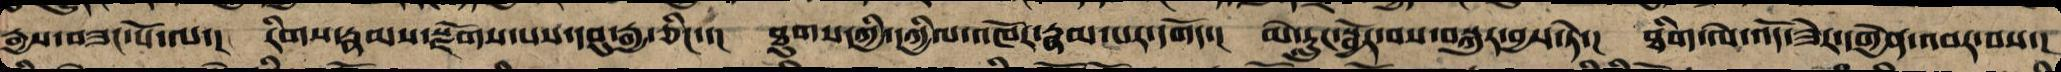རྒྱས་བཟང་པོ་ལ་།  རིགས་རྣམས་སྫོགས་པས་དབུ་བརྒྱན་ཅིང་་།  ཐུགས་ཀྱི་དཀྱིལ་འཁོར་རྣམ་པར་དགོད་།  མེ་རླུང་སྦྱོར་བས་བསྐུལ་བྱས་ཏེ་།  ཐིག་ལེ་འོད་ཟེར་གྱེན་འབར་བས་།
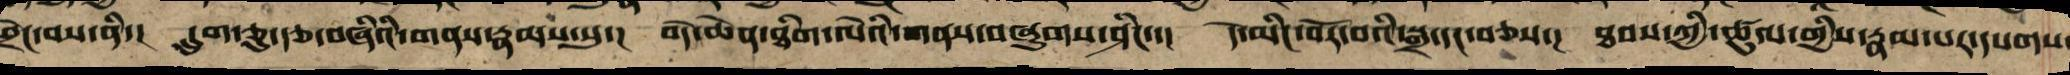ཕྲེང་བས་ནི་། དྲུག་ཅུ་རྩ་བཞིའི་གནས་རྣམས་སུ་། བདེ་ཆེན་ཐིག་ལེའི་ཚུལ་བཞུགས་ཤིང་་། དེ་མིང་བོར་བའི་སྒྲ་དང་བཅས་། ཐབས་ཀྱི་ཚུལ་གྱིས་རྣམ་པར་དཔགས
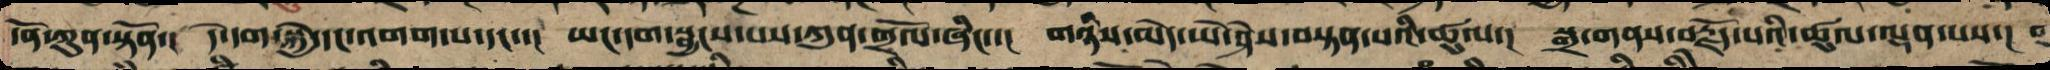དོན་ཀུན་སྟོན། དེ་དག་སྐྱེ་དང་འགག་པ་དང་། ཡང་དག་སྦྱངས་པས་ཀུན་གྲོལ་ཞིང་། གཉིས་མེད་ཡེ་ཤེས་བརྟན་པའི་ཚུལ། སྒྲ་གནས་བརྗོད་པའི་ཚུལ་ལྡན་པས།
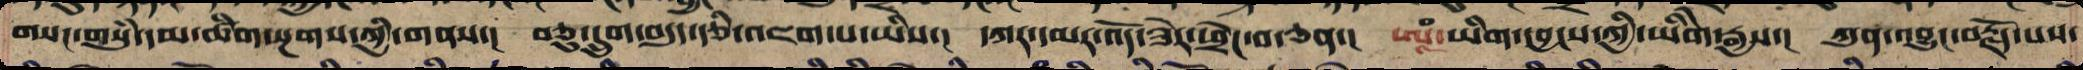གསང་གསུཾ་དམ་ཚིག་སྔགས་ཀྱི་གནས་། བཅུ་དྲུག་བདུད་རྩི་འཛག་པ་ཡིས་། དཀར་དམར་འོད་ཟེར་ཕྲེང་བ་ཅན་། ཨཱཾ་ཡིག་དབྱངས་ཀྱི་ཡིགེ་རྒྱས་། ཀུན་འབྱུང་བརྗོད་པས་
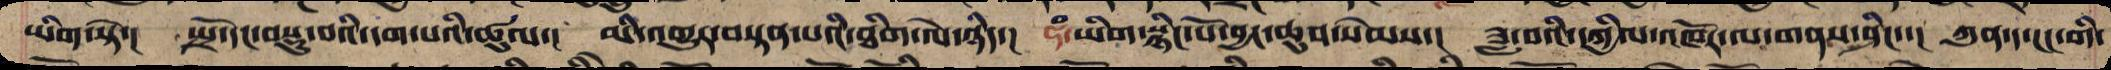ཡིགེསྟེ་། སྤྲོ་དང་བསྡུ་བས་དག་པའི་ཚུལ་། མི་འགྱུར་བསྟན་པའི་ཐིག་ལེ་ཉིད་། ཧཾ་ཡིག་སྙིང་པོ་བྱང་ཆུབ་སེམས་། ཟླ་བའི་དཀྱིལ་འཁོར་ལ་གནས་ཤིང་་། ཀུན་ད་ངང་གི་
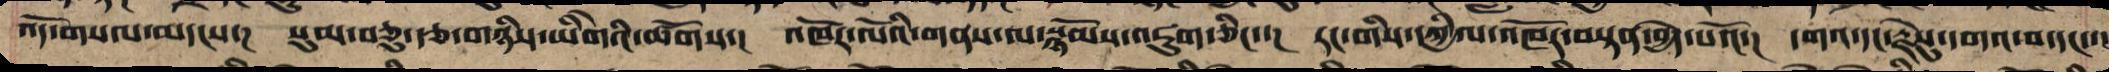འོད་གསལ་མདངས་། སུམ་ཅུ་རྩ་གཉིས་ཡིགེའི་ཚོགས་། འཁོར་ལོའི་གནས་ལ་སྙོམས་འཇུག་ཅིང་་། རང་གི་དཀྱིལ་འཁོར་བསྟན་བྱེད་པའོ་། དགའ་དང་རྗེསུ་དགའ་བ་དང་་།
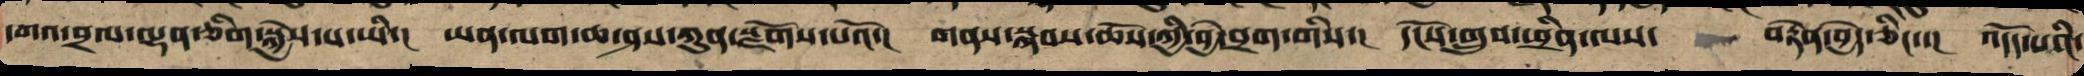དགའ་བྲལ་ལྷན་ཅིག་སྐྱེས་པ་ཡི་། ཡན་ལག་ཆ་ཤས་ཀུན་སྫོགས་པའོ་། གནས་སྐབས་ཆོས་ཀྱི་བྱེ་བྲག་གིས་། དངོས་གྲུབ་ཕྲིན་ལས་བརྟེན་བྱེད་ཅིང་་། འདོད་པའི་
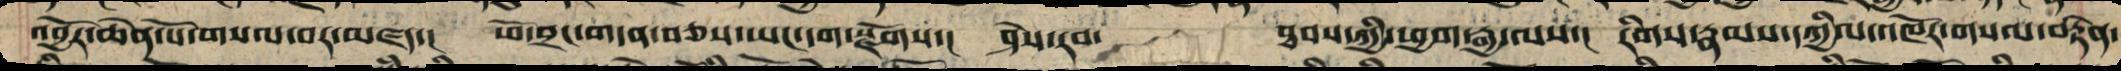འབྱོར་ཆེན་པོ་གསལ་བར་མཛད་། ཕོ་བྲང་གདན་བཅས་ཡང་དག་སྫོགས་། ཤེས་རབ་    ཐབས་ཀྱི་ཕྱག་རྒྱ་ལས་། རིགས་རྣམས་དཀྱིལ་འཁོར་གསལ་བརྟེན་
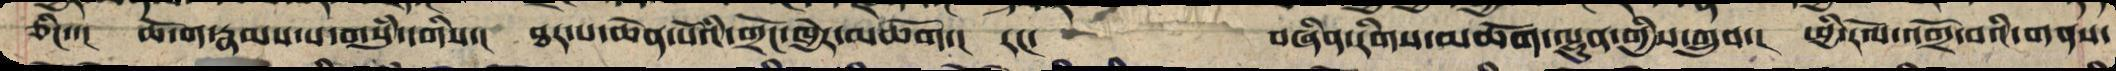ཅིང་་། ཆོ་ག་རྣམ་པ་གསུཾ་དག་གིས་། ཐར་པ་ཆེན་པོའི་གྲོང་ཁྱེར་མཆོག། རང་    བཞིན་རིགས་མཆོག་ལྷུན་གྱིས་གྲུབ་། ཕྱི་རོལ་འགྲོ་བའི་གནས་
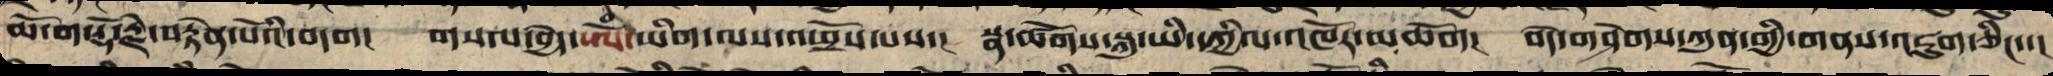ཆོ་ག་རྡོ་རྗེ་བརྟན་པོའི་བདག། གསལ་བྱེད་ཨོཾ་ཡིག་ལས་འཕྲོས་པས་། སྣ་ཚོགས་སྐུ་ཡི་དཀྱིལ་འཁོར་མཆོག། བདེ་གཤེགས་ཀུན་གྱི་གནས་འཇུག་ཅིང་་།
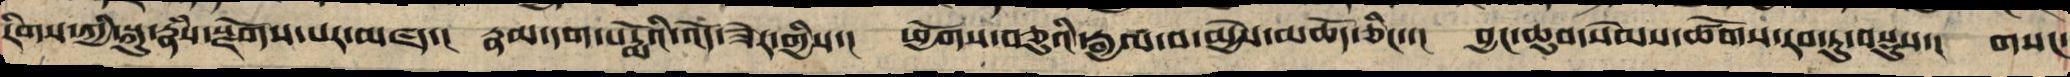རིགས་ཀྱི་སྐུ་རྣཾས་སྫོགས་པར་མཛད་། རྣམ་དག་པདྨོའི་འོད་ཟེར་གྱིས་། ཕྱོགས་བཅུའི་རྒྱལ་བ་མྱེས་མཆོད་ཅིང་་། བྱང་ཆུབ་སེམས་ཚོགས་རབ་ཏུ་བསྡུས་། གསང་
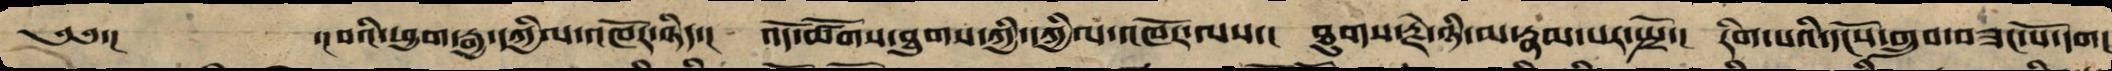༄༅་།   ་།བའི་ཕྱག་རྒྱ་དཀྱིལ་འཁོར་ཉིད་། འོད་ཚོགས་ཐུགས་ཀྱི་དཀྱིལ་འཁོར་ལས་། ཐུགས་རྗེ་ཉི་མ་རྣམ་པར་སྤྲོ་། རིག་པའི་དངོས་གྲུབ་བཟང་པོ་དག།
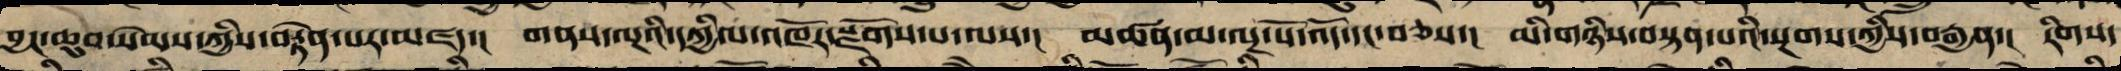བྱང་ཆུབ་སེམས་ཀྱིས་བརྟེན་པར་མཛད་། གནས་ལྔའི་དཀྱིལ་འཁོར་སྫོགས་པ་ལས་། མཚན་མ་ལྔ་པོ་འོད་དང་བཅས་། མི་གཉིས་བསྟན་པའི་སྔགས་ཀྱིས་བརྒྱན་། རིགས་
